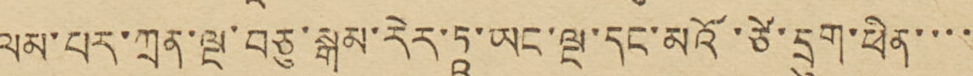ལམ་པར་ཀྲན་ལྔ་བཅུ་སྒམ་རེར་དཱ་ཡང་ལྔ་དང་མའོ་ཙེ་དྲུག་ཕིན་་་་་
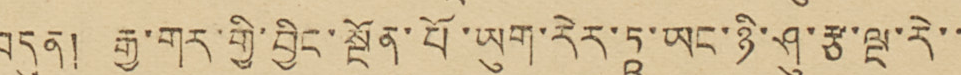བདུན། རྒྱ་གར་གྱི་བྱིང་སྔོན་པོ་ཡུག་རེར་དཱ་ཡང་ཉི་ཤུ་རྩ་ལྔ་རེ་་་
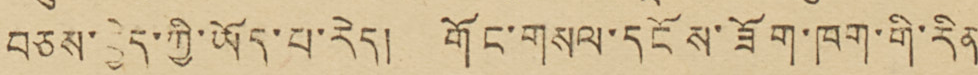བཅས་བྱེད་ཀྱི་ཡོད་པ་རེད། གོང་གསལ་དངོས་ཟོག་ཁག་གི་རིན་
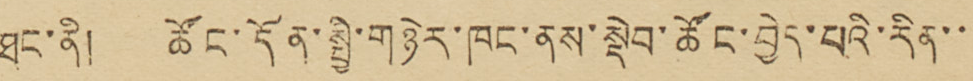ཐང་ནི། ཚོང་དོན་སྤྱི་གཉེར་ཁང་ནས་སྡེབ་ཚོང་བྱེད་པའི་རིན་་་
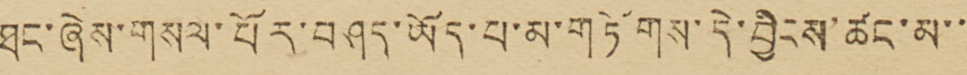ཐང་ཞེས་གསལ་པོར་བཤད་ཡོད་པ་མ་གཏོགས་དེ་བྱིངས་ཚང་མ་་་
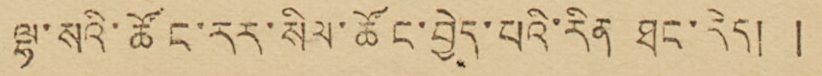ལྷ་སའི་ཚོང་རར་སིལ་ཚོང་བྱེད་པའི་རིན ཐང་རེད། །
